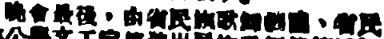晚會最後，由省民族歌舞劇團、省民
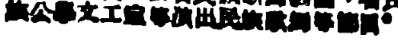族公學文工宣等演出民族歌舞等節目。
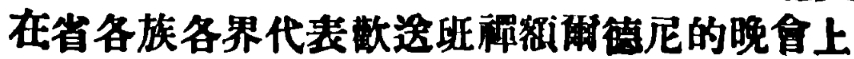在省各族各界代表歡送班禪額爾德尼的晚會上
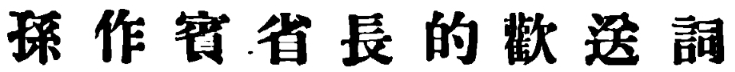孫 作 賓 省 長 的 歡 送 詞
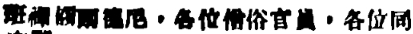禪額爾德尼，各位僧俗官員，各位同
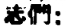志們：
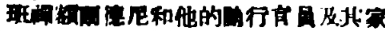禪額爾德尼和他的隨行官員及其家
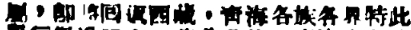屬，卽將囘反西藏，靑海各族各界特此
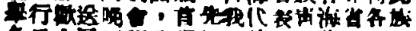舉行歡送晚會，首先我代表靑海省各族
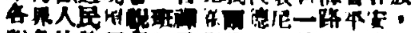各界人民預祝班禪額爾德尼一路平安，
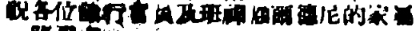祝各位隨行官員及班禪額爾德尼的家屬
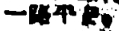一路平安。
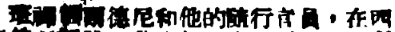班禪額爾德尼和他的隨行官員，在西
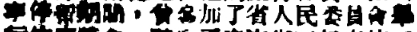寧停留期間，曾參加了省人民委員會舉
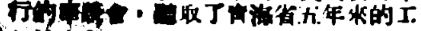行的座談會，聽取了靑海省五年來的工
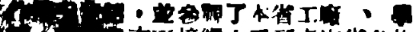作情況介紹，並參觀了本省工廠 、學
